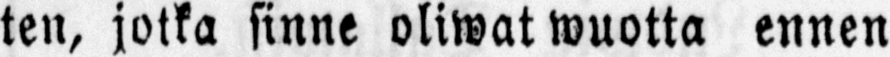ten, jotka sinne oliwat wuotta ennen
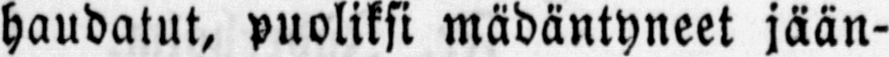haudatut, puoliksi mädäntyneet jään-
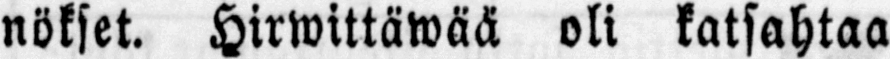nökset. Hirwittäwää oli katsahtaa
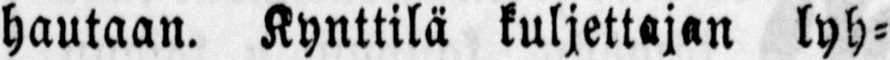hautaan. Kynttilä kuljettajan lyh-
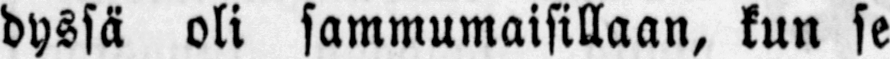dyssä oli sammumaisillaan, kun se
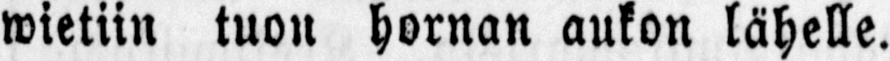wietiin tuon hornan aukon lähelle.
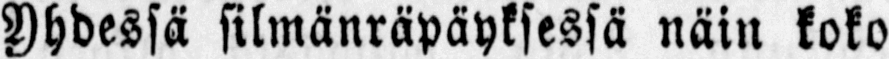Yhdessä silmänräpäyksessä näin koko
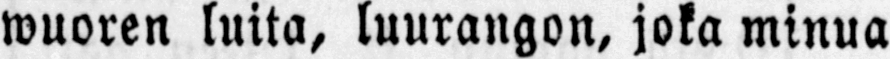wuoren luita, luurangon, joka minua
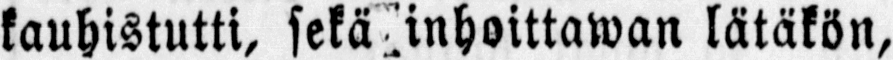kauhistutti, sekä inhoittawan lätäkön,
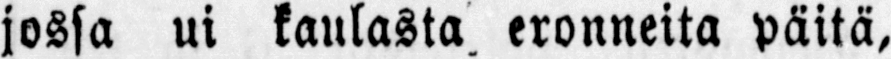jossa ui kaulasta, eronneita päitä,
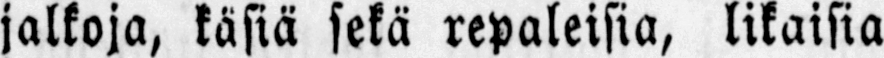jalkoja, käsiä sekä repaleisia, likaisia
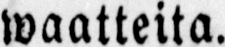waatteita.
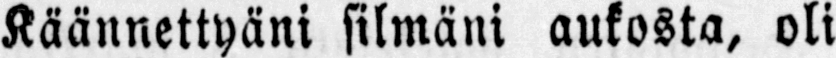Käännettyäni silmäni aukosta, oli
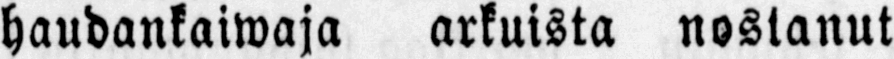haudankaitwaja arkuista nostanut
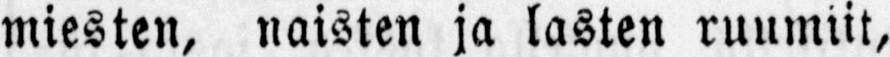miesten, naisten ja lasten ruumiit,
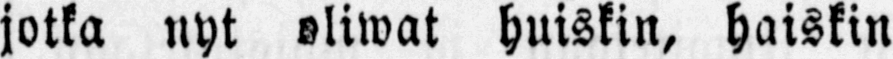jotka nyt oliwat huiskin, haiskin
